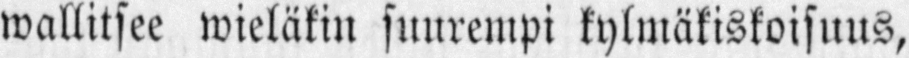wallitsee wieläkin suurempi kylmäkiskoisuus,
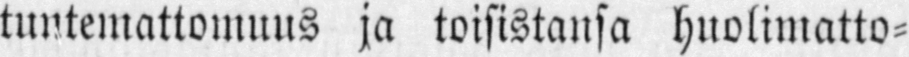tuntemattomuus ja toisistansa huolimatto-
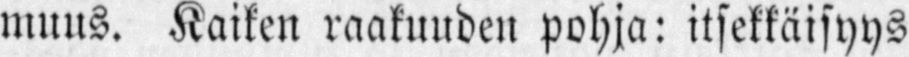muus. Kaiken raakuuden pohja: itsekkäisyys
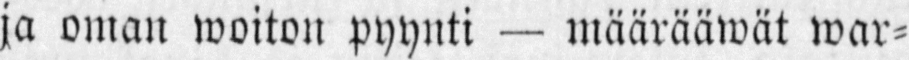ja oman woiton pyynti — määrääwät war-
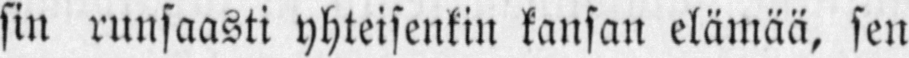sin runsaasti yhteisenkin kansan elämää, sen
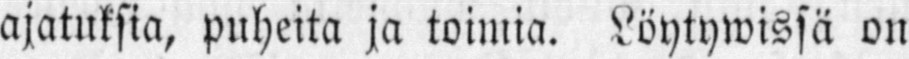ajatuksia, puheita ja toimia. Löytywissä on
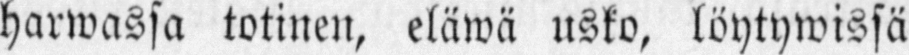harwassa totinen, eläwä usko, löytywissä
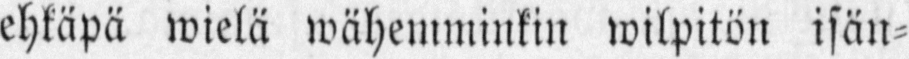ehkäpä wielä wähemminkin wilpitön isän-
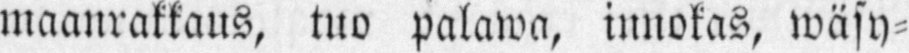maanrakkaus, tuo palawa, innokas, wäsy-
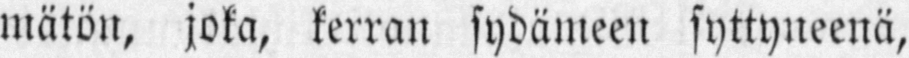mätön, joka, kerran sydämeen syttyneenä,
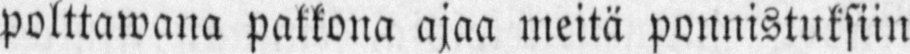polttawana pakkona ajaa meitä ponnistuksiin
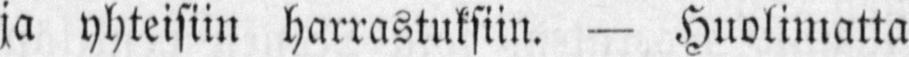ja yhteisiin harrastuksiin. — Huolimatta
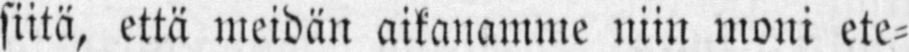siitä, että meidän aitanamme niin moni ete-
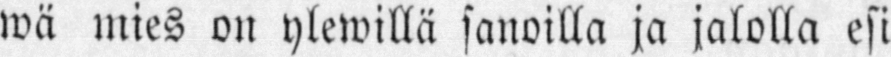wä mies on ylewillä sanoilla ja jalolla esi-
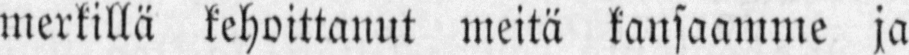merkillä kehoittanut meitä kansaamme ja
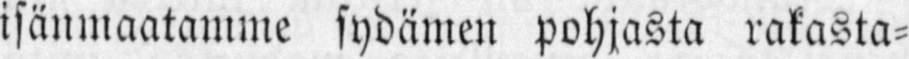isänmaatamme sydämen pohjasta rakasta-
